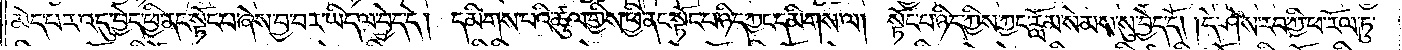མེད་པར་འདུ་བྱེད་ཕྱི་ནང་སྟོང་པ་ཞེས་བྱ་བར་ཡིད་ལ་བྱེད་དེ། དམིགས་པའི་ཚུལ་གྱིས་ཕྱི་ནང་སྟོང་པ་ཉིད་ཀྱང་དམིགས་ལ། སྟོང་པ་ཉིད་ཀྱིས་ཀྱང་རློམ་སེམས་སུ་བྱེད་དོ། །དེ་ཤེས་རབ་ཀྱི་ཕ་རོལ་ཏུ་
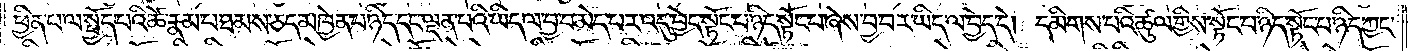ཕྱིན་པ་ལ་སྤྱོད་པའི་ཚེ་རྣམ་པ་ཐམས་ཅད་མཁྱེན་པ་ཉིད་དང་ལྡན་པའི་ཡིད་ལ་བྱ་བ་མེད་པར་འདུ་བྱེད་སྟོང་པ་ཉིད་སྟོང་པ་ཞེས་བྱ་བར་ཡིད་ལ་བྱེད་དོ། དམིགས་པའི་ཚུལ་གྱིས་སྟོང་པ་ཉིད་སྟོང་པ་ཉིད་ཀྱང་
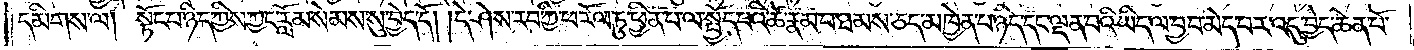དམིགས་ལ། སྟོང་པ་ཉིད་ཀྱིས་ཀྱང་རློམ་སེམས་སུ་བྱེད་དོ། །དེ་ཤེས་རབ་ཀྱི་ཕ་རོལ་ཏུ་ཕྱིན་པ་ལ་སྤྱོད་པའི་ཚེ་རྣམ་པ་ཐམས་ཅད་མཁྱེན་པ་ཉིད་དང་ལྡན་པའི་ཡིད་ལ་བྱ་བ་མེད་པར་འདུ་བྱེད་ཆེན་པོ་
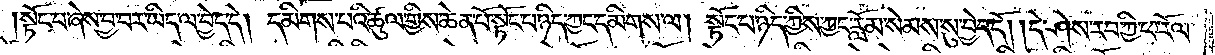སྟོང་པ་ཞེས་བྱ་བར་ཡིད་ལ་བྱེད་དེ། དམིགས་པའི་ཚུལ་གྱིས་ཆེན་པོ་སྟོང་པ་ཉིད་ཀྱང་དམིགས་ལ། སྟོང་པ་ཉིད་ཀྱིས་ཀྱང་རློམ་སེམས་སུ་བྱེད་དོ། །དེ་ཤེས་རབ་ཀྱི་ཕ་རོལ་
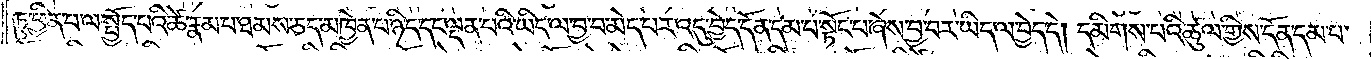ཏུ་ཕྱིན་པ་ལ་སྤྱོད་པའི་ཚེ་རྣམ་པ་ཐམས་ཅད་མཁྱེན་པ་ཉིད་དང་ལྡན་པའི་ཡིད་ལ་བྱ་བ་མེད་པར་འདུ་བྱེད་དོན་དམ་པ་སྟོང་པ་ཞེས་བྱ་བར་ཡིད་ལ་བྱེད་དེ། དམིགས་པའི་ཚུལ་གྱིས་དོན་དམ་པ་
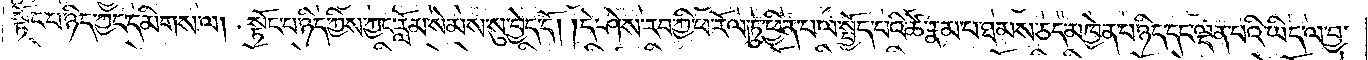སྟོང་པ་ཉིད་ཀྱང་དམིགས་ལ། སྟོང་པ་ཉིད་ཀྱིས་ཀྱང་རློམ་སེམས་སུ་བྱེད་དོ། །དེ་ཤེས་རབ་ཀྱི་ཕ་རོལ་ཏུ་ཕྱིན་པ་ལ་སྤྱོད་པའི་ཚེ་རྣམ་པ་ཐམས་ཅད་མཁྱེན་པ་ཉིད་དང་ལྡན་པའི་ཡིད་ལ་བྱ་
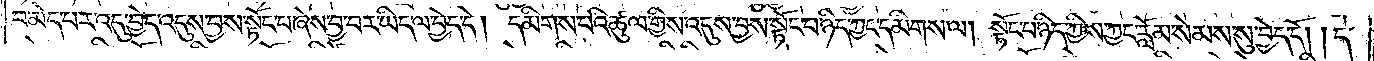བ་མེད་པར་འདུ་བྱེད་འདུས་བྱས་སྟོང་པ་ཞེས་བྱ་བར་ཡིད་ལ་བྱེད་དེ། དམིགས་པའི་ཚུལ་གྱིས་འདུས་བྱས་སྟོང་པ་ཉིད་ཀྱང་དམིགས་ལ། སྟོང་པ་ཉིད་ཀྱིས་ཀྱང་རློམ་སེམས་སུ་བྱེད་དོ། །དེ་
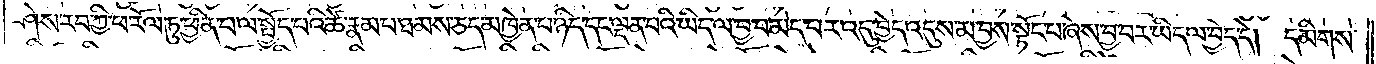ཤེས་རབ་ཀྱི་ཕ་རོལ་ཏུ་ཕྱིན་པ་ལ་སྤྱོད་པའི་ཚེ་རྣམ་པ་ཐམས་ཅད་མཁྱེན་པ་ཉིད་དང་ལྡན་པའི་ཡིད་ལ་བྱ་བ་མེད་པར་འདུ་བྱེད་འདུས་མ་བྱས་སྟོང་པ་ཞེས་བྱ་བར་ཡིད་ལ་བྱེད་དེ། དམིགས་
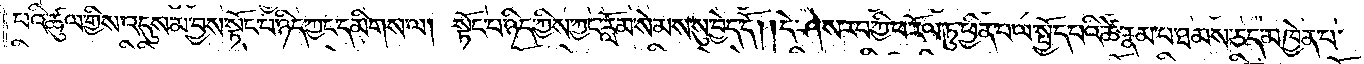པའི་ཚུལ་གྱིས་འདུས་མ་བྱས་སྟོང་པ་ཉིད་ཀྱང་དམིགས་ལ། སྟོང་པ་ཉིད་ཀྱིས་ཀྱང་རློམ་སེམས་སུ་བྱེད་དོ། །དེ་ཤེས་རབ་ཀྱི་ཕ་རོལ་ཏུ་ཕྱིན་པ་ལ་སྤྱོད་པའི་ཚེ་རྣམ་པ་ཐམས་ཅད་མཁྱེན་པ་
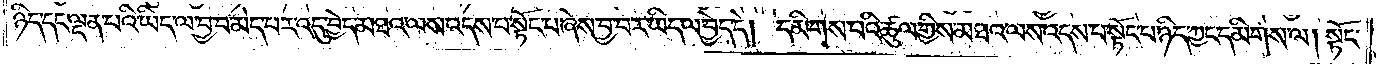ཉིད་དང་ལྡན་པའི་ཡིད་ལ་བྱ་བ་མེད་པར་འདུ་བྱེད་མཐའ་ལས་འདས་པ་སྟོང་པ་ཞེས་བྱ་བར་ཡིད་ལ་བྱེད་དེ། དམིགས་པའི་ཚུལ་གྱིས་མཐའ་ལས་འདས་པ་སྟོང་པ་ཉིད་ཀྱང་དམིགས་ལ། སྟོང་
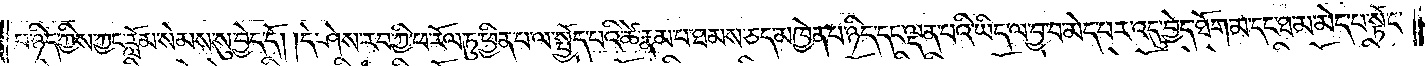པ་ཉིད་ཀྱིས་ཀྱང་རློམ་སེམས་སུ་བྱེད་དོ། །དེ་ཤེས་རབ་ཀྱི་ཕ་རོལ་ཏུ་ཕྱིན་པ་ལ་སྤྱོད་པའི་ཚེ་རྣམ་པ་ཐམས་ཅད་མཁྱེན་པ་ཉིད་དང་ལྡན་པའི་ཡིད་ལ་བྱ་བ་མེད་པར་འདུ་བྱེད་ཐོག་མ་དང་ཐ་མ་མེད་པ་སྟོང་
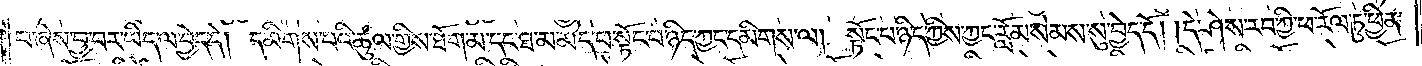པ་ཞེས་བྱ་བར་ཡིད་ལ་བྱེད་དེ། དམིགས་པའི་ཚུལ་གྱིས་ཐོག་མ་དང་ཐ་མ་མེད་པ་སྟོང་པ་ཉིད་ཀྱང་དམིགས་ལ། སྟོང་པ་ཉིད་ཀྱིས་ཀྱང་རློམ་སེམས་སུ་བྱེད་དོ། །དེ་ཤེས་རབ་ཀྱི་ཕ་རོལ་ཏུ་ཕྱིན་
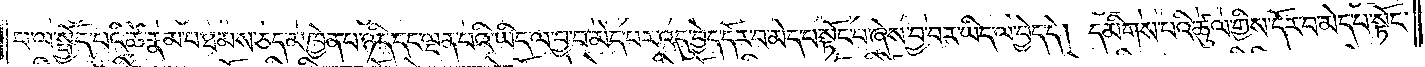པ་ལ་སྤྱོད་པའི་ཚེ་རྣམ་པ་ཐམས་ཅད་མཁྱེན་པ་ཉིད་དང་ལྡན་པའི་ཡིད་ལ་བྱ་བ་མེད་པར་འདུ་བྱེད་དོར་བ་མེད་པ་སྟོང་པ་ཞེས་བྱ་བར་ཡིད་ལ་བྱེད་དེ། དམིགས་པའི་ཚུལ་གྱིས་དོར་བ་མེད་པ་སྟོང་
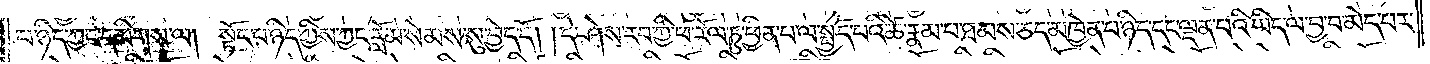པ་ཉིད་ཀྱང་དམིགས་ལ། སྟོང་པ་ཉིད་ཀྱིས་ཀྱང་རློམ་སེམས་སུ་བྱེད་དོ། །དེ་ཤེས་རབ་ཀྱི་ཕ་རོལ་ཏུ་ཕྱིན་པ་ལ་སྤྱོད་པའི་ཚེ་རྣམ་པ་ཐམས་ཅད་མཁྱེན་པ་ཉིད་དང་ལྡན་པའི་ཡིད་ལ་བྱ་བ་མེད་པར་
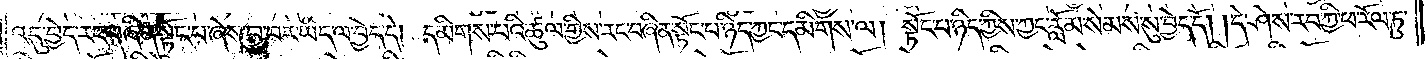འདུ་བྱེད་རང་བཞིན་སྟོང་པ་ཞེས་བྱ་བར་ཡིད་ལ་བྱེད་དེ། དམིགས་པའི་ཚུལ་གྱིས་རང་བཞིན་སྟོང་པ་ཉིད་ཀྱང་དམིགས་ལ། སྟོང་པ་ཉིད་ཀྱིས་ཀྱང་རློམ་སེམས་སུ་བྱེད་དོ། །དེ་ཤེས་རབ་ཀྱི་ཕ་རོལ་ཏུ་
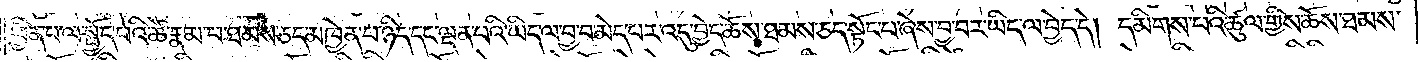ཕྱིན་པ་ལ་སྤྱོད་པའི་ཚེ་རྣམ་པ་ཐམས་ཅད་མཁྱེན་པ་ཉིད་དང་ལྡན་པའི་ཡིད་ལ་བྱ་བ་མེད་པར་འདུ་བྱེད་ཆོས་ཐམས་ཅད་སྟོང་པ་ཞེས་བྱ་བར་ཡིད་ལ་བྱེད་དེ། དམིགས་པའི་ཚུལ་གྱིས་ཆོས་ཐམས་
